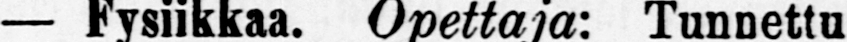— Fysiikkaa. Opettaja: Tunnettu
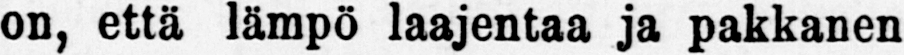on, että lämpö laajentaa ja pakkanen
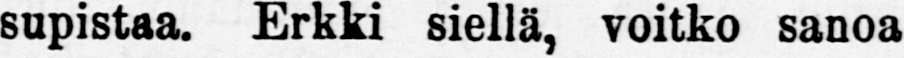supistaa. Erkki siellä, voitko sanoa
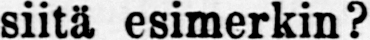siitä esimerkin?
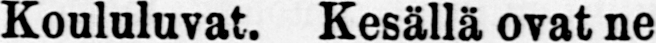Erkki: Koululuvat. Kesällä ovat ne
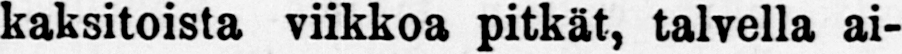kaksitoista viikkoa pitkät, talvella ai-
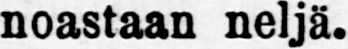noastaan neljä.
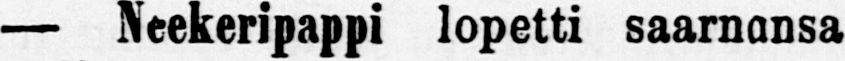— Neekeripappi lopetti saarnansa
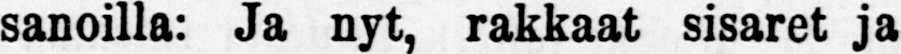sanoilla: Ja rakkaat sisaret ja
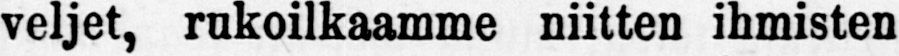veljet, rakoilkaamme niitten ihmisten
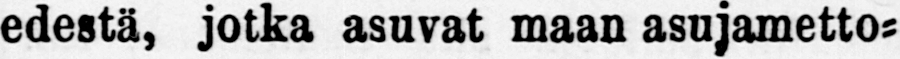edestä, jotka asuvat maan asujametto-
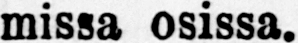missa osissa.
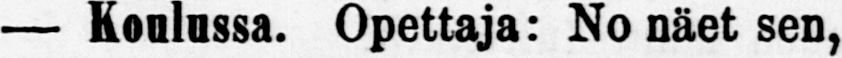— Koulussa. Opettaja: No näet sen,
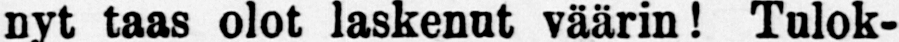nyt taas olot laskenut väärin! Tulok-
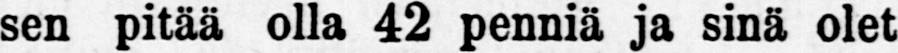sen pitää olla 42 penniä ja sinä olet
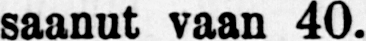saanut vaan 40.
